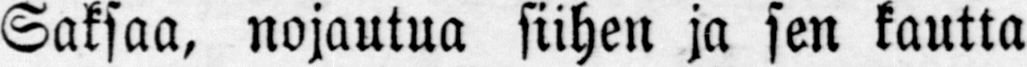Saksaa, nojautua siihen ja sen kautta
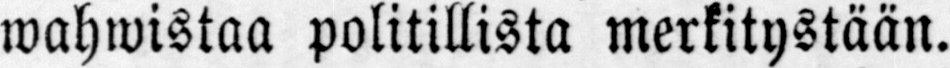wahwistaa politillista merkitystään.
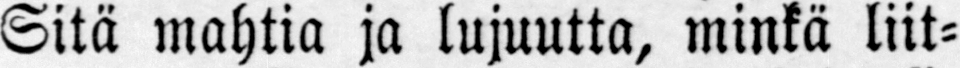Sitä mahtia ja lujuutta, minkä liit-
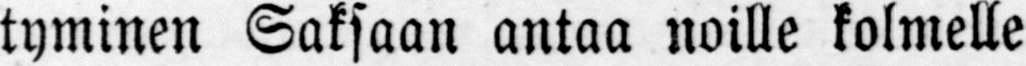tyminen Saksaan antaa noille kolmelle
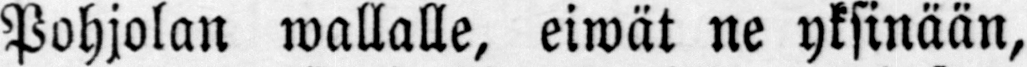Pohjolan wallalle, eiwät ne yksinään,
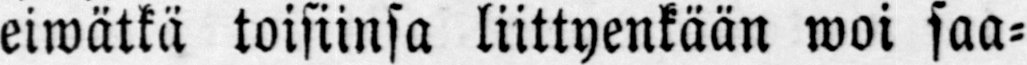eiwätkä toisiinsa liittyenkään woi saa-
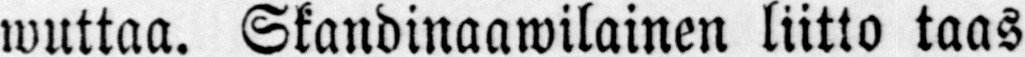wuttaa. Skandinaawilainen liitto taas
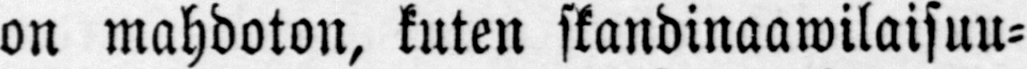on mahdoton, kuten skandinaawilaisuu-
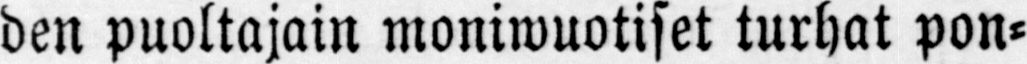den puoltajain moniwuotiset turhat pon-
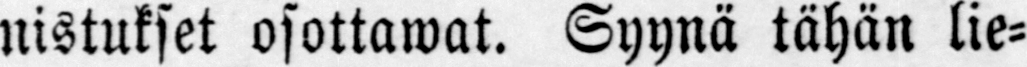nistukset osottawat. Syynä tähän lie-
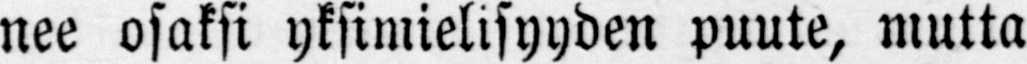nee osaksi yksimielisyyden puute, mutta
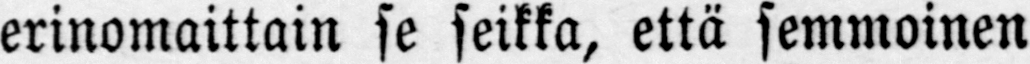erinomaittain se seikka, että semmoinen
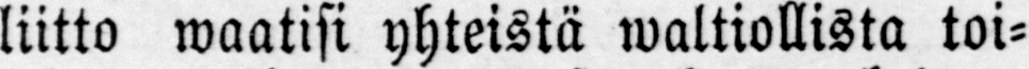liitto waatisi yhteistä waltiollista toi-
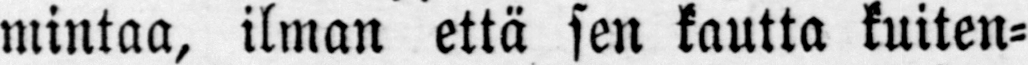mintaa, ilman että sen kautta kuiten-
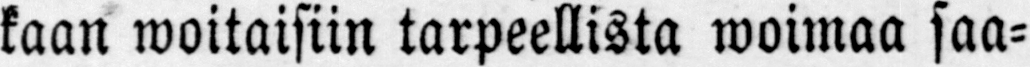kaan woitaisiin tarpeellista woimaa saa-
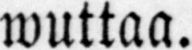wuttaa.
